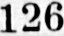126
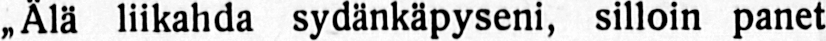„Älä liikahda sydänkäpyseni, silloin panet
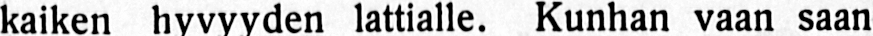kaiken hyvyyden lattialle. Kunhan vaan saan
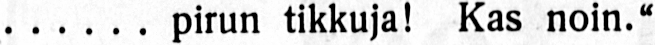...... pirun tikkuja! Kas noin."
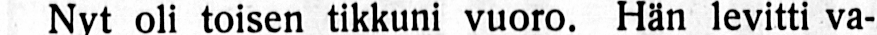Nyt oli toisen tikkuni vuoro. Hän levitti va-
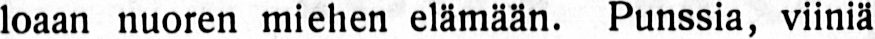loaan nuoren miehen elämään. Punssia, viiniä
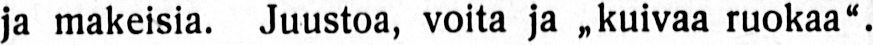ja makeisia. Juustoa, voita ja „kuivaa ruokaa".
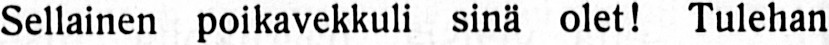Sellainen poikavekkuli sinä olet! Tulehan
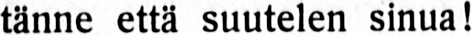tänne että suutelen sinua!
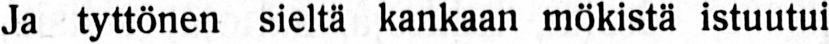Ja tyttönen sieltä kankaan mökistä istuutui
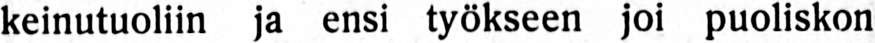keinutuoliin ja ensi työkseen joi puoliskon
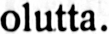olutta.
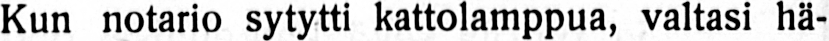Kun notario sytytti kattolamppua, valtasi hä-
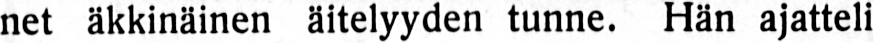net äkkinäinen äitelyyden tunne. Hän ajatteli
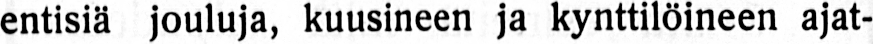entisiä jouluja, kuusineen ja kynttilöineen ajat-
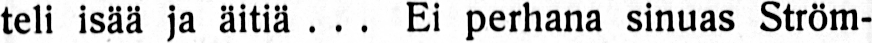teli isää ja äitiä... Ei perhana sinuas Ström-
